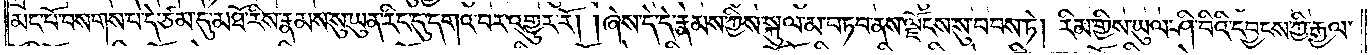མང་པོ་བསགས་པ་དེ་ཙམ་དུ་མཐོ་རིས་རྣམས་སུ་ཡུན་རིང་དུ་དགའ་བར་འགྱུར་རོ། །ཞེས་དེ་དེ་རྣམས་ཀྱིས་སྐུལ་མ་བཏབ་ནས་ལྗོངས་སུ་བབས་ཏེ། རིམ་གྱིས་ཡུལ་ཤི་བིའི་དབྱངས་ཀྱི་རྒྱལ་
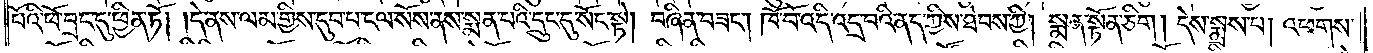པོའི་ཕོ་བྲང་དུ་ཕྱིན་ཏོ། །དེ་ནས་ལམ་གྱིས་དུབ་པ་ངལ་སོས་ནས་སྨན་པའི་དྲུང་དུ་སོང་སྟེ། བཞིན་བཟང༌། ཁོ་བོ་འདི་འདྲ་བའི་ནད་ཀྱིས་ཐེབས་ཀྱི། སྨན་སྟོན་ཅིག །དེས་སྨྲས་པ། འཕགས་
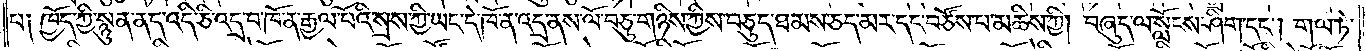པ༑ ཁྱོད་ཀྱི་སྙུན་ནད་འདི་ཅི་འདྲ་བ་ཁོ་ན་རྒྱལ་པོའི་སྲས་ཀྱི་ཡང་དེ་ཁོ་ན་འདྲ་ནས་ལོ་བཅུ་གཉིས་ཀྱིས་བཅུད་ཐམས་ཅད་མར་དང་བཙོས་པ་མཆིས་ཀྱི། བཞུད་ལ་སློངས་ཤིག་དང༌། གལ་ཏེ་
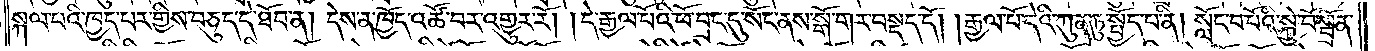སྐལ་པའི་ཁྱད་པར་གྱིས་བཅུད་དེ་ཐོབ་ན། དེས་ན་ཁྱོད་འཚོ་བར་འགྱུར་རོ། །དེ་རྒྱལ་པོའི་ཕོ་བྲང་དུ་སོང་ནས་སྒོ་གར་བསྡད་དོ། །རྒྱལ་པོ་དེའི་ཀུན་ཏུ་སྤྱོད་པ་ནི། སློང་བ་པོའི་སྐྱེ་བོ་སྦྲོན་
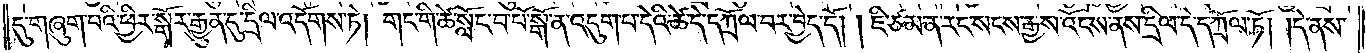དུ་གཞུག་པའི་ཕྱིར་སྒོར་རྒྱུན་དུ་དྲིལ་འདོགས་ཏེ། གང་གི་ཚེ་སློང་བ་པོ་སྒོ་ན་འདུག་པ་དེའི་ཚེ་དེ་དཀྲོལ་བར་བྱེད་དོ། །ཇི་ཙམ་ན་རང་སངས་རྒྱས་འོངས་ནས་དྲིལ་དེ་དཀྲོལ་ཏོ། །དེ་ནས་
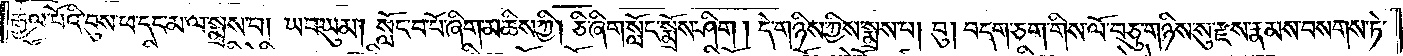རྒྱལ་པོའི་བུས་ཕ་དང་མ་ལ་སྨྲས་པ། ཡབ་ཡུམ། སློང་བ་པོ་ཞིག་མཆིས་ཀྱི། ཅི་ཞིག་སློང་སྨྲོས་ཤིག །དེ་གཉིས་ཀྱིས་སྨྲས་པ། བུ། བདག་ཅག་གིས་ལོ་བཅུ་གཉིས་སུ་རྫས་རྣམས་བསགས་ཏེ་
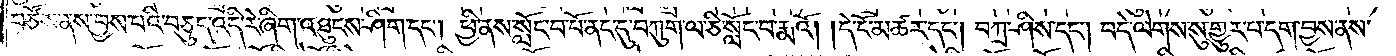བཙོས་ནས་བྱས་པའི་བཅུད་འདི་རེ་ཞིག་འཐུངས་ཤིག་དང༌། ཕྱི་ནས་སློང་བ་པོ་ནང་དུ་བཀུག་ལ་ཅི་སློང་བ་རྨའོ། །དེ་ངོ་མཚར་དང༌། བཀྲ་ཤིས་དང༌། བདེ་ལེགས་སུ་གྱུར་པ་དག་བྱས་ནས་
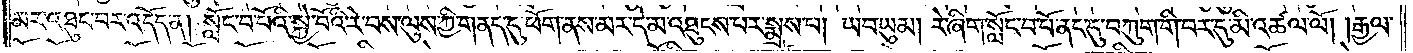མར་འཐུང་བར་འདོད་ན། སློང་བ་པོའི་སྐྱེ་བོའི་རེ་བས་ལུས་ཀྱི་གནད་དུ་ཕོག་ནས་མར་དེ་མ་འཐུངས་པར་སྨྲས་པ། ཡབ་ཡུམ། རེ་ཞིག་སློང་བ་པོ་ནང་དུ་བཀུག་གི་བར་དུ་མི་འཚལ་ལོ། །རྒྱལ་
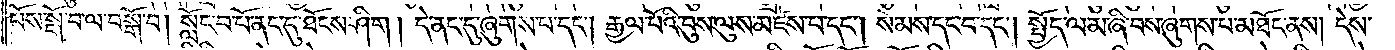པོས་སྒོ་བ་ལ་བསྒོ་བ། སློང་བ་པོ་ནང་དུ་ཐོངས་ཤིག །དེ་ནང་དུ་ཞུགས་པ་དང༌། རྒྱལ་པོའི་བུས་ལུས་མཛེས་པ་དང༌། སེམས་དང་བ་དང༌། སྤྱོད་ལམ་ཞི་བས་ཞུགས་པ་མཐོང་ནས། དེས་
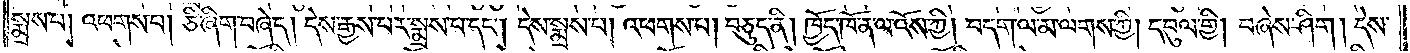སྨྲས་པ། འཕགས་པ། ཅི་ཞིག་བཞེད། དེས་རྒྱས་པར་སྨྲས་པ་དང༌། དེས་སྨྲས་པ། འཕགས་པ། བཅུད་ནི། ཁྱོད་ཁོ་ན་ལ་འོས་ཀྱི། བདག་ལ་མ་ལགས་ཀྱི། དབུལ་གྱི། བཞེས་ཤིག །དེས་
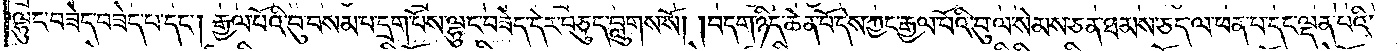ལྷུང་བཟེད་བཟེད་པ་དང༌། རྒྱལ་པོའི་བུ་བསམ་པ་དྲག་པོས་ལྷུང་བཟེད་དེར་བཅུད་བླུགས་སོ། །བདག་ཉིད་ཆེན་པོ་དེས་ཀྱང་རྒྱལ་པོའི་བུ་ལ་སེམས་ཅན་ཐམས་ཅད་ལ་ཕན་པ་དང་ལྡན་པའི་
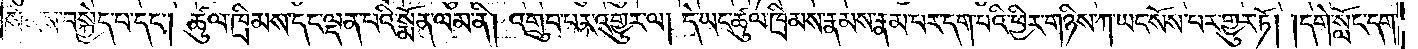སེམས་བསྐྱེད་པ་དང༌། ཚུལ་ཁྲིམས་དང་ལྡན་པའི་སྨོན་ལམ་ནི། འགྲུབ་པར་འགྱུར་ལ། དེ་ཡང་ཚུལ་ཁྲིམས་རྣམས་རྣམ་པར་དག་པའི་ཕྱིར་གཉིས་ཀ་ཡང་སོས་པར་གྱུར་ཏོ། །དགེ་སློང་དག་
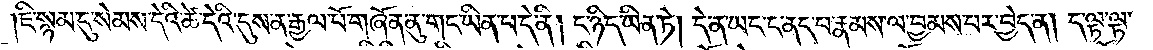།ཇི་སྙམ་དུ་སེམས་དེའི་ཚེ་དེའི་དུས་ན་རྒྱལ་པོ་གཞོན་ནུ་གང་ཡིན་པ་དེ་ནི། ང་ཉིད་ཡིན་ཏེ། དེ་ན་ཡང་ང་ནད་པ་རྣམས་ལ་བྱམས་པར་བྱེད་ན། ད་ལྟ་ལྟ་
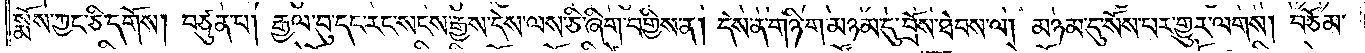སྨོས་ཀྱང་ཅི་དགོས། བཙུན་པ། རྒྱལ་བུ་དང་རང་སངས་རྒྱས་དེས་ལས་ཅི་ཞིག་བགྱིས་ན། དེས་ན་གཉི་ག་མཉམ་དུ་བྲོས་ཐེབས་ལ། མཉམ་དུ་སོས་པར་གྱུར་ལགས། བཅོམ་
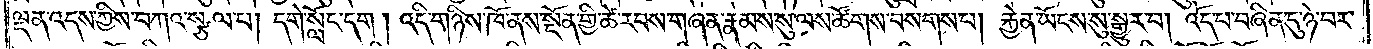ལྡན་འདས་ཀྱིས་བཀའ་སྩལ་པ། དགེ་སློང་དག །འདི་གཉིས་ཁོ་ནས་སྔོན་གྱི་ཚེ་རབས་གཞན་རྣམས་སུ་ལས་ཚོགས་བསགས་པ། རྐྱེན་ཡོངས་སུ་སྒྱུར་བ། འོད་པ་བཞིན་དུ་ཉེ་བར་
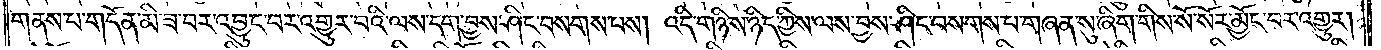གནས་པ་གདོན་མི་ཟ་བར་འབྱུང་བར་འགྱུར་བའི་ལས་དག་བྱས་ཤིང་བསགས་པས། འདི་གཉིས་ཉིད་ཀྱིས་ལས་བྱས་ཤིང་བསགས་པ་གཞན་སུ་ཞིག་གིས་སོ་སོར་མྱོང་བར་འགྱུར།
